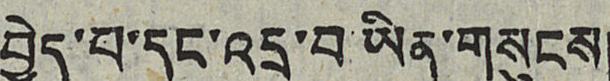བྱེད་པ་དང་འདྲ་བ་ཡིན་གསུངས།
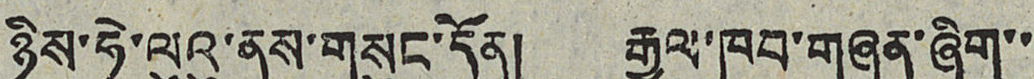ཉིས་ཧེ་ལུའུ་ནས་གསུང་དོན། རྒྱལ་ཁབ་གཞན་ཞིག་་་
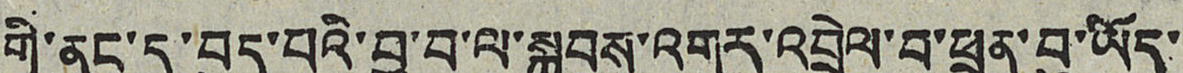གི་ནང་དུ་བུད་པའི་བྱ་བ་ལ་སྐབས་འགར་འབྲེལ་བ་ཕྲན་བུ་ཡོད་་
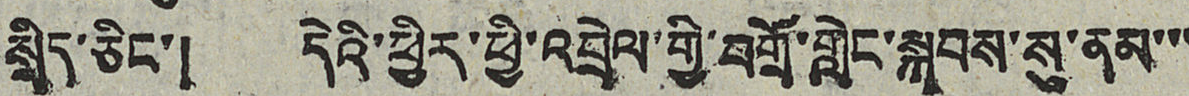སྲིད་ཅིང་། དེའི་ཕྱིར་ཕྱི་འབྲེལ་གྱི་བགྲོ་གླེང་སྐབས་སུ་ནམ་་་
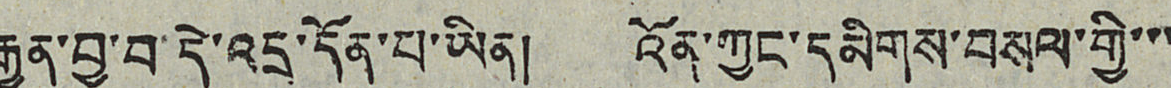རྒྱུན་བྱ་བ་དེ་འདྲ་དོན་པ་ཡིན། འོན་ཀྱང་དམིགས་བསལ་གྱི་་་
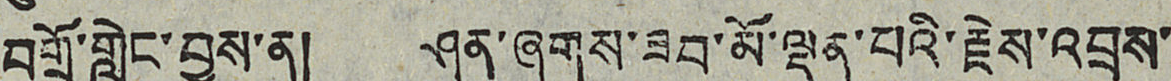བགྲོ་གླེང་བྱས་ན། ཤན་ཞུགས་ཟབ་མོ་ལྡན་པའི་རྗེས་འབྲས་་
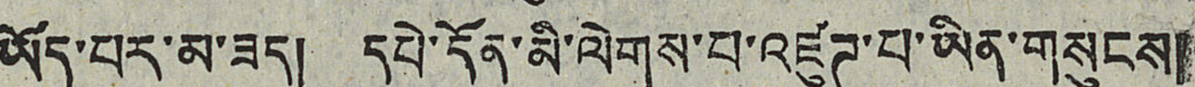ཡོད་པར་མ་ཟད། དཔེ་དོན་མི་ལེགས་པ་འཛུཊ་པ་ཡིན་གསུངས།
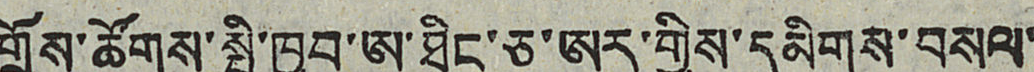གྲོས་ཚོགས་སྤྱི་ཁྱབ་ཨ་ཐིང་ཅ་ཨར་གྱིས་དམིགས་བསལ་
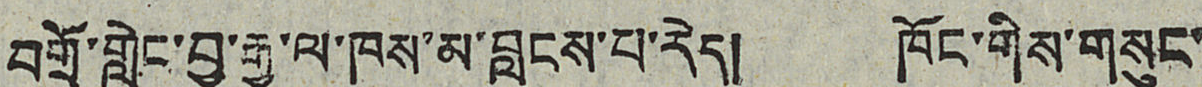བགྲོ་གླེང་བྱ་རྒྱུ་ལ་ཁས་མ་བླངས་པ་རེད། ཁོང་གིས་གསུང་
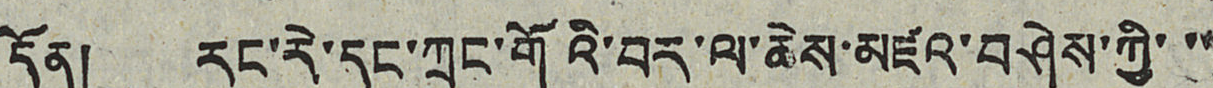དོན། རང་རེ་དང་ཀྲུང་གོའི་བར་ལ་ཆེས་མཛའ་བཤེས་ཀྱི་་་
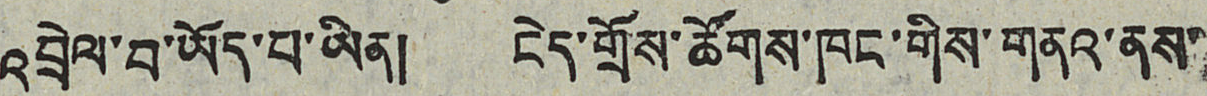འབྲེལ་བ་ཡོད་པ་ཡིན། ངེད་གྲོས་ཚོགས་ཁང་གིས་གནའ་ནས་
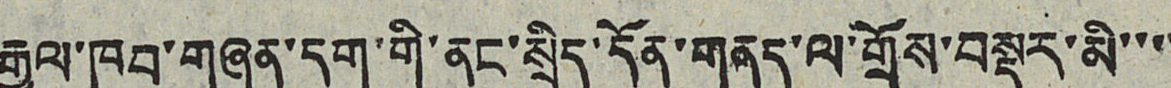རྒྱལ་ཁབ་གཞན་དག་གི་ནང་སྲིད་དོན་གནད་ལ་གྲོས་བསྡུར་མི་་་་
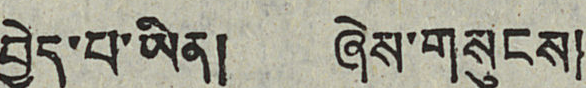བྱེད་པ་ཡིན། ཞེས་གསུངས།
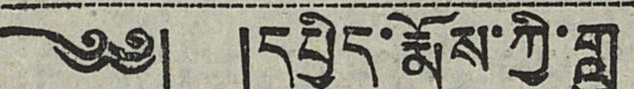༄༅། །དཔྱིད་རྨོས་ཀྱི་གླུ
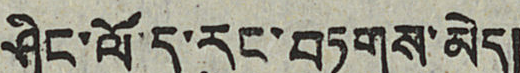ཤིང་ལོ་ད་རུང་བཏགས་མེད།
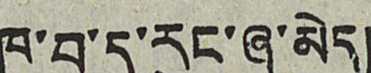ཁ་བ་ད་རུང་ཞུ་མེད།
